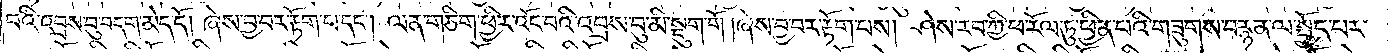བའི་འབྲས་བུ་བདག་མེད་དོ། །ཞེས་བྱ་བར་རྟོག་པ་དང༌། ལན་གཅིག་ཕྱིར་འོང་བའི་འབྲས་བུ་མི་སྡུག་གོ །ཞེས་བྱ་བར་རྟོག་པས། ཤེས་རབ་ཀྱི་ཕ་རོལ་ཏུ་ཕྱིན་པའི་གཟུགས་བརྙན་ལ་སྤྱོད་པར་
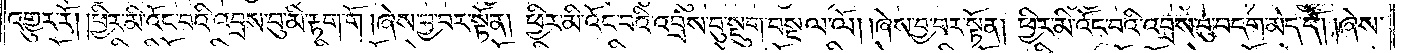འགྱུར་རོ། །ཕྱིར་མི་འོང་བའི་འབྲས་བུ་མི་རྟག་གོ །ཞེས་བྱ་བར་སྟོན། ཕྱིར་མི་འོང་བའི་འབྲས་བུ་སྡུག་བསྔལ་ལོ། །ཞེས་བྱ་བར་སྟོན། ཕྱིར་མི་འོང་བའི་འབྲས་བུ་བདག་མེད་དོ། །ཞེས་
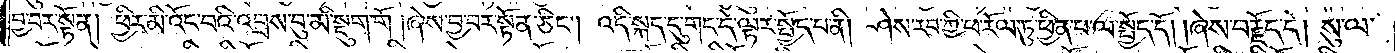བྱ་བར་སྟོན། ཕྱིར་མི་འོང་བའི་འབྲས་བུ་མི་སྡུག་གོ །ཞེས་བྱ་བར་སྟོན་ཅིང༌། འདི་སྐད་དུ་གང་དེ་ལྟར་སྤྱོད་པ་ནི། ཤེས་རབ་ཀྱི་ཕ་རོལ་ཏུ་ཕྱིན་པ་ལ་སྤྱོད་དོ། །ཞེས་བརྗོད་དེ། སུ་ལ་
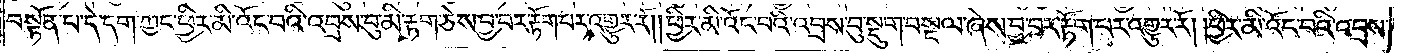བསྟན་པ་དེ་དག་ཀྱང་ཕྱིར་མི་འོང་བའི་འབྲས་བུ་མི་རྟག་ཅེས་བྱ་བར་རྟོག་པར་འགྱུར་རོ། །ཕྱིར་མི་འོང་བའི་འབྲས་བུ་སྡུག་བསྔལ་ཞེས་བྱ་བར་རྟོག་པར་འགྱུར་རོ། །ཕྱིར་མི་འོང་བའི་འབྲས་
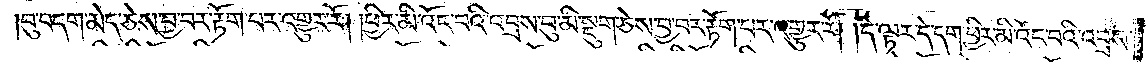བུ་བདག་མེད་ཅེས་བྱ་བར་རྟོག་པར་འགྱུར་རོ། །ཕྱིར་མི་འོང་བའི་འབྲས་བུ་མི་སྡུག་ཅེས་བྱ་བར་རྟོག་པར་འགྱུར་རོ། །དེ་ལྟར་དེ་དག་ཕྱིར་མི་འོང་བའི་འབྲས་
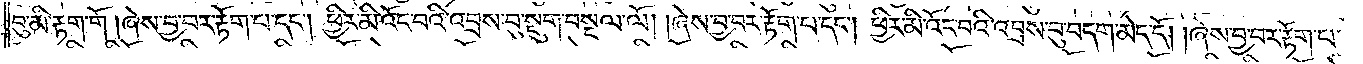བུ་མི་རྟག་གོ །ཞེས་བྱ་བར་རྟོག་པ་དང༌། ཕྱིར་མི་འོང་བའི་འབྲས་བུ་སྡུག་བསྔལ་ལོ། །ཞེས་བྱ་བར་རྟོག་པ་དང༌། ཕྱིར་མི་འོང་བའི་འབྲས་བུ་བདག་མེད་དོ། །ཞེས་བྱ་བར་རྟོག་པ་
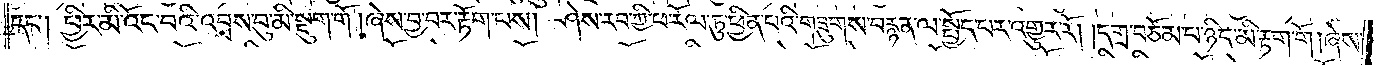དང༌། ཕྱིར་མི་འོང་བའི་འབྲས་བུ་མི་སྡུག་གོ །ཞེས་བྱ་བར་རྟོག་པས། ཤེས་རབ་ཀྱི་ཕ་རོལ་ཏུ་ཕྱིན་པའི་གཟུགས་བརྙན་ལ་སྤྱོད་པར་འགྱུར་རོ། །དགྲ་བཅོམ་པ་ཉིད་མི་རྟག་གོ །ཞེས་
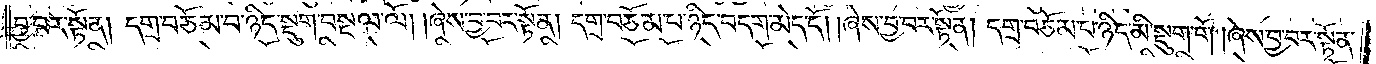བྱ་བར་སྟོན། དགྲ་བཅོམ་པ་ཉིད་སྡུག་བསྔལ་ལོ། །ཞེས་བྱ་བར་སྟོན། དགྲ་བཅོམ་པ་ཉིད་བདག་མེད་དོ། །ཞེས་བྱ་བར་སྟོན། དགྲ་བཅོམ་པ་ཉིད་མི་སྡུག་གོ །ཞེས་བྱ་བར་སྟོན་
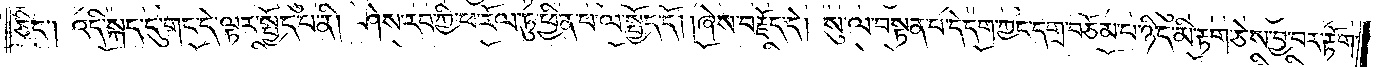ཅིང༌། འདི་སྐད་དུ་གང་དེ་ལྟར་སྤྱོད་པ་ནི། ཤེས་རབ་ཀྱི་ཕ་རོལ་ཏུ་ཕྱིན་པ་ལ་སྤྱོད་དོ། །ཞེས་བརྗོད་དོ། སུ་ལ་བསྟན་པ་དེ་དག་ཀྱང་དགྲ་བཅོམ་པ་ཉིད་མི་རྟག་ཅེས་བྱ་བར་རྟོག་
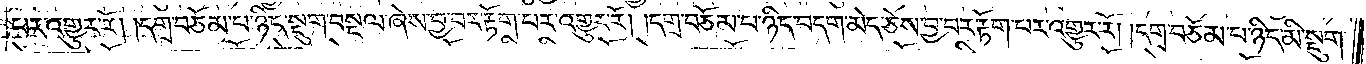པར་འགྱུར་རོ། །དགྲ་བཅོམ་པ་ཉིད་སྡུག་བསྔལ་ཞེས་བྱ་བར་རྟོག་པར་འགྱུར་རོ། །དགྲ་བཅོམ་པ་ཉིད་བདག་མེད་ཅེས་བྱ་བར་རྟོག་པར་འགྱུར་རོ། །དགྲ་བཅོམ་པ་ཉིད་མི་སྡུག་
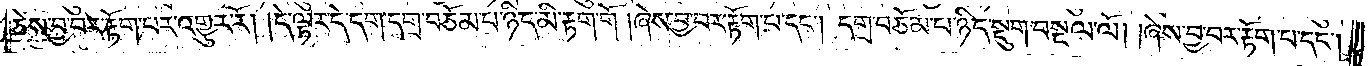ཅེས་བྱ་བར་རྟོག་པར་འགྱུར་རོ། །དེ་ལྟར་དེ་དག་དགྲ་བཅོམ་པ་ཉིད་མི་རྟག་གོ །ཞེས་བྱ་བར་རྟོག་པ་དང༌། དགྲ་བཅོམ་པ་ཉིད་སྡུག་བསྔལ་ལོ། །ཞེས་བྱ་བར་རྟོག་པ་དང༌།
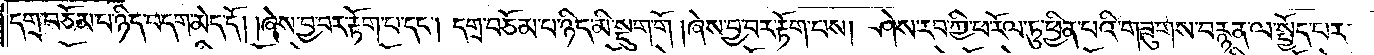དགྲ་བཅོམ་པ་ཉིད་བདག་མེད་དོ། །ཞེས་བྱ་བར་རྟོག་པ་དང༌། དགྲ་བཅོམ་པ་ཉིད་མི་སྡུག་གོ །ཞེས་བྱ་བར་རྟོག་པས། ཤེས་རབ་ཀྱི་ཕ་རོལ་ཏུ་ཕྱིན་པའི་གཟུགས་བརྙན་ལ་སྤྱོད་པར་
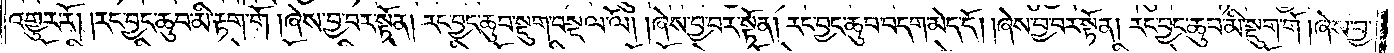འགྱུར་རོ། །རང་བྱང་ཆུབ་མི་རྟག་གོ །ཞེས་བྱ་བར་སྟོན། རང་བྱང་ཆུབ་སྡུག་བསྔལ་ལོ། །ཞེས་བྱ་བར་སྟོན། རང་བྱང་ཆུབ་བདག་མེད་དོ། །ཞེས་བྱ་བར་སྟོན། རང་བྱང་ཆུབ་མི་སྡུག་གོ །ཞེས་བྱ་
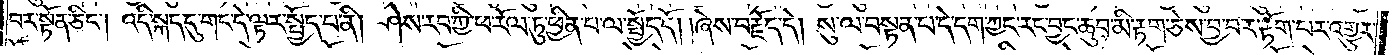བར་སྟོན་ཅིང༌། འདི་སྐད་དུ་གང་དེ་ལྟར་སྤྱོད་པ་ནི། ཤེས་རབ་ཀྱི་ཕ་རོལ་ཏུ་ཕྱིན་པ་ལ་སྤྱོད་དོ། །ཞེས་བརྗོད་དེ། སུ་ལ་བསྟན་པ་དེ་དག་ཀྱང་རང་བྱང་ཆུབ་མི་རྟག་ཅེས་བྱ་བར་རྟོག་པར་འགྱུར་
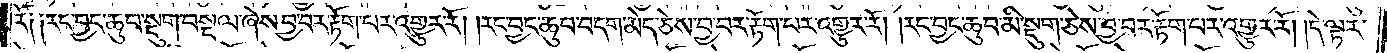རོ༑ ༑རང་བྱང་ཆུབ་སྡུག་བསྔལ་ཞེས་བྱ་བར་རྟོག་པར་འགྱུར་རོ། །རང་བྱང་ཆུབ་བདག་མེད་ཅེས་བྱ་བར་རྟོག་པར་འགྱུར་རོ། །རང་བྱང་ཆུབ་མི་སྡུག་ཅེས་བྱ་བར་རྟོག་པར་འགྱུར་རོ། །དེ་ལྟར་
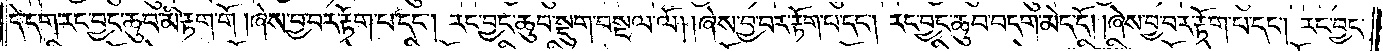དེ་དག་རང་བྱང་ཆུབ་མི་རྟག་གོ །ཞེས་བྱ་བར་རྟོག་པ་དང༌། རང་བྱང་ཆུབ་སྡུག་བསྔལ་ལོ། །ཞེས་བྱ་བར་རྟོག་པ་དང༌། རང་བྱང་ཆུབ་བདག་མེད་དོ། །ཞེས་བྱ་བར་རྟོག་པ་དང༌། རང་བྱང་
